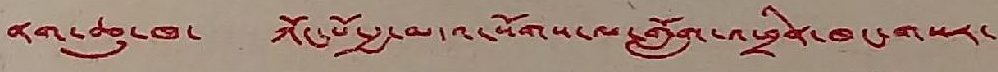ནག་ཆུ་ཁ་ ཀོང་པོ་རྒྱ་མདའ་སོགས་ལ་གློག་འཕྲིན་ཁང་གསར་
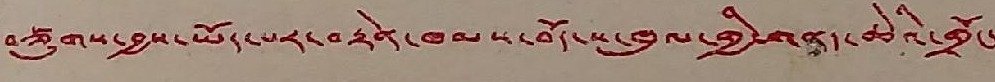བཙུགས་བྱས་ཡོད་པར་བརྟེན་ཁམས་བོད་ས་ཁུལ་གྱི་གནད་ཆེའི་གྲོང་
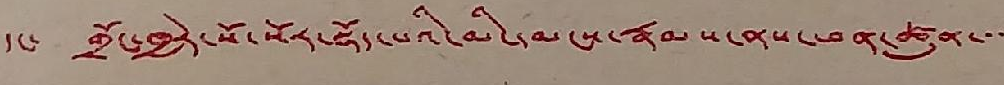དང་ གྲོང་ཁྱེར་སོ་སོར་སྡོད་པའི་མི་དམངས་རྣམས་ནས་ཕན་ཚུན་་་
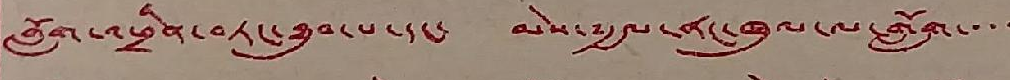གློག་འཕྲིན་བཏང་ཐུབ་པ་དང་ མེས་༸རྒྱལ་ནང་ཁུལ་ལ་གློག་་་་
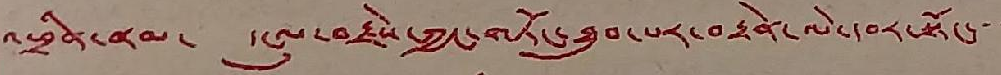འཕྲིན་ནམ་ དངུལ་བརྗེས་ཀྱང་གཏོང་ཐུབ་པར་བརྟེན་ལེ་དབར་སྟོང་་་
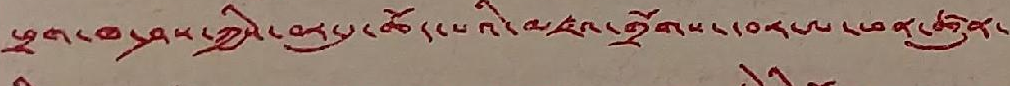ཕྲག་ཁ་ཤས་ཀྱིས་བར་དུ་ཆོད་པའི་མཛའ་གྲོགས་དབར་ལ་ཕན་ཚུན་
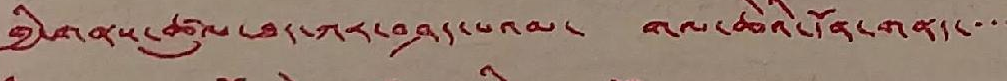གྱི་གནས་ཚུལ་ཐད་ཀར་བཤད་པའམ་ གལ་ཆེའི་དོན་གནད་་་་
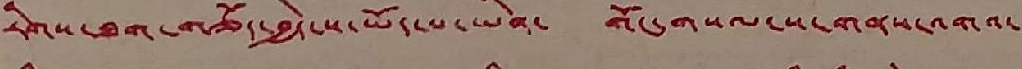རིགས་ཐག་གཅོད་བྱེད་ས་ཡོད་པ་ཡིན་ གོང་གསལ་ས་གནས་འགའ་
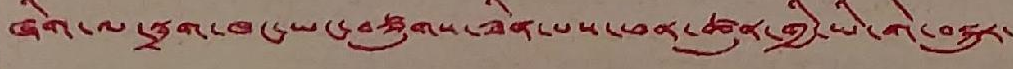ཞིག་ལ་སྦྲག་ཁང་ཡང་བཙུགས་ཟིན་པས་ཕན་ཚུན་གྱི་ཡི་གེ་བསྐུར་
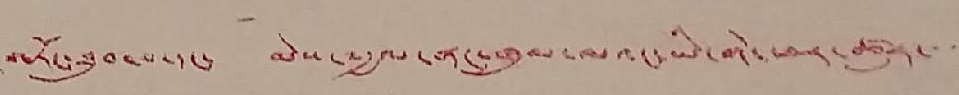གཏོང་ཐུབ་པ་དང་ མེས་༸རྒྱལ་ནང་ཁུལ་ལའང་ཡི་གེ་ཕར་ཚུར་་་་
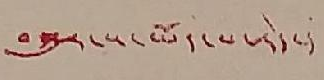བསྐུར་ས་ཡོད་་པ་རེད་།
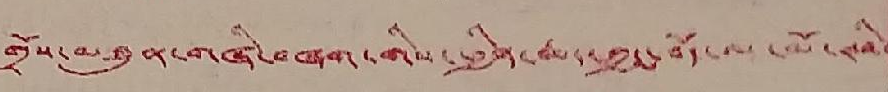གྲོས་མཐུན་གཞི་བཞག་གིས་ཕྱིན་ཆད་ཀྱང་བོད་ལ་མོ་ཊའི་
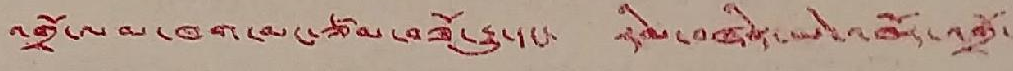འགྲོ་ལམ་ཁག་མང་ཙམ་བཟོ་རྒྱུ་དང་ རིམ་བཞིན་མེ་འཁོར་འགྲོ་
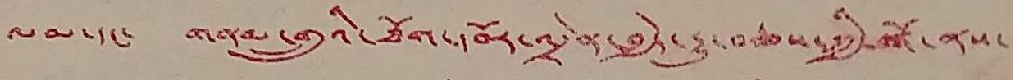ལམ་དང་ གནམ་གྲུའི་ཐོག་དབོར་འདྲེན་བྱེད་རྒྱུ་བཅས་ཀྱི་སྒོ་ནས་
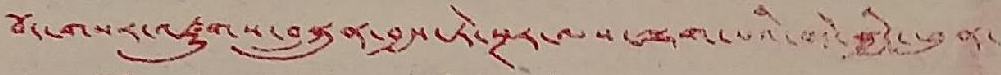བོད་གསར་འཛུགས་བསྐྲུན་བྱས་ཏེ་སྔར་ལས་ལྷག་པའི་བདེ་སྐྱིད་ཕུན་
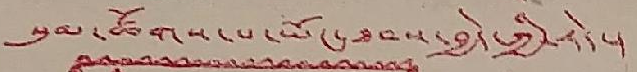སུམ་ཚོགས་པ་ཡོང་ཐབས་བྱེད་ཀྱི་རེད་།
